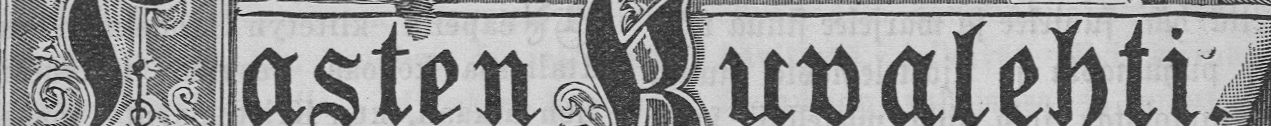Lasten Kuvalehti.
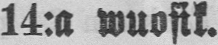14:a wuosik.
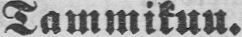Tammikuu.
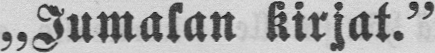„Jumalan kirjat."
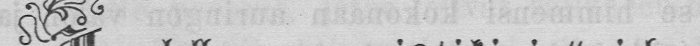Jumalalla on „muistikirja", johon
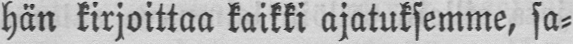hän kirjoittaa kaikki ajatuksemme, sa-
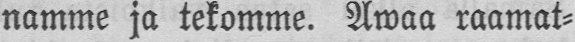namme ja tekomme. Awaa raamat-
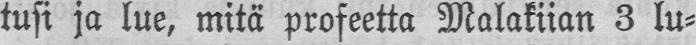tusi ja lue, mitä profeetta Malakiian 3 lu-
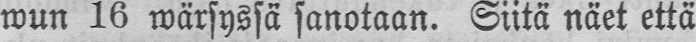wun 16 wärsyssä sanotaan. Siitä näet että
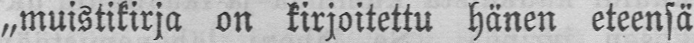„muistikirja on kirjoitettu hänen eteensä
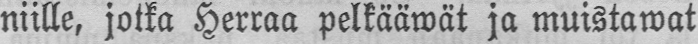niille, jotka Herraa pelkääwät ja muistawat
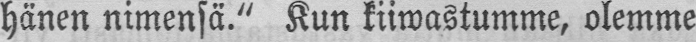hänen nimensä." Kun kiiwastumme, olemme
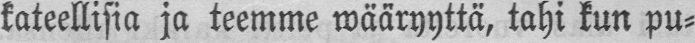kateellisia ja teemme wääryyttä, tahi kun pu-
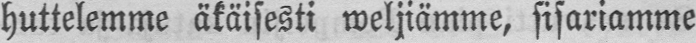huttelemme äkäisesti weljiämme, sisariamme
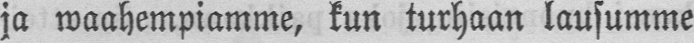ja waahempiamme, kun turhaan lausumme
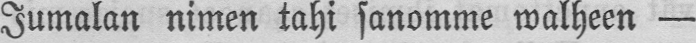Jumalan nimen tahi sanomme walheen —
